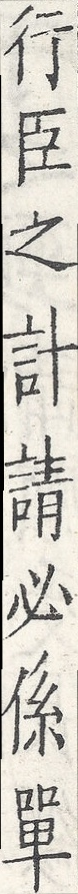行臣之計請必係單
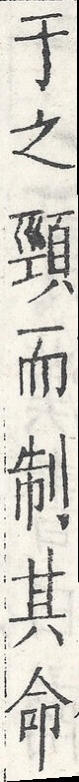于之頸而制其命
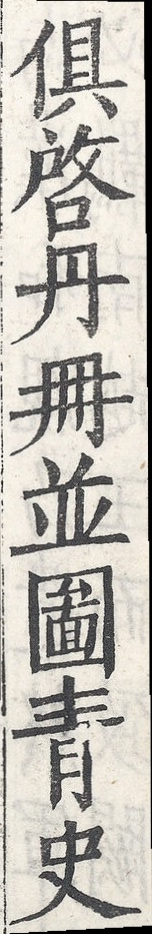俱啟丹冊並圖青史
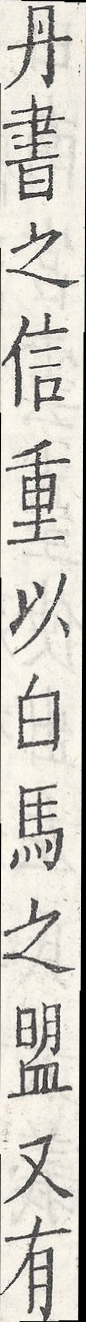丹書之信重以白馬之盟又有
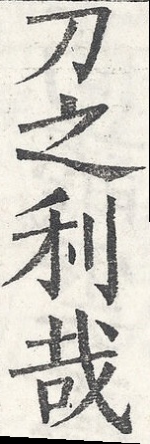刀之利哉
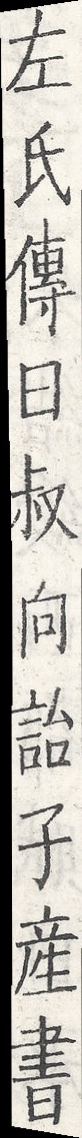左氏傳曰叔向詒子產書
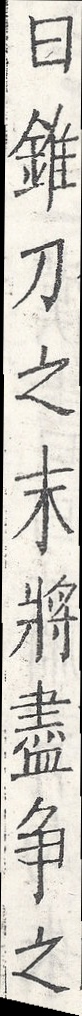曰錐刀之末將盡爭之
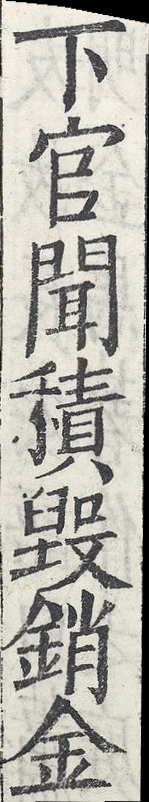下官聞積毀銷金
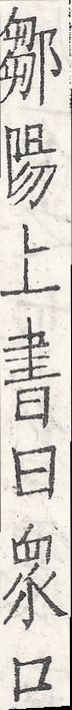鄒陽上書曰衆口
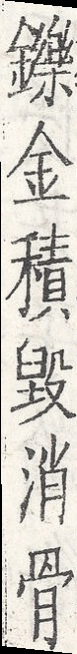鑠金積毀消骨
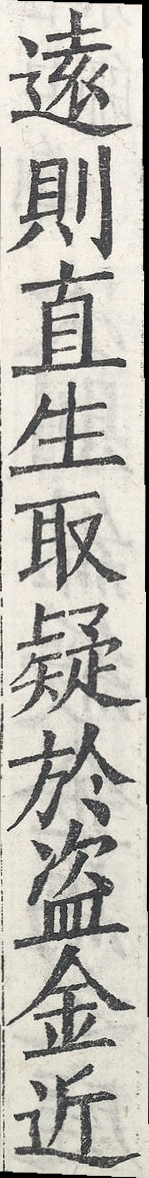遠則直生取疑於盜金近
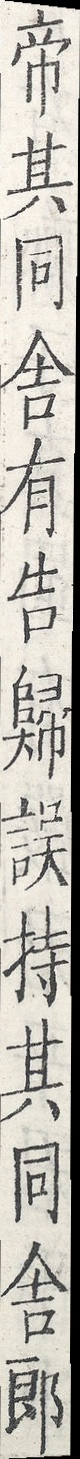帝其同舍有告歸誤持其同舍郎
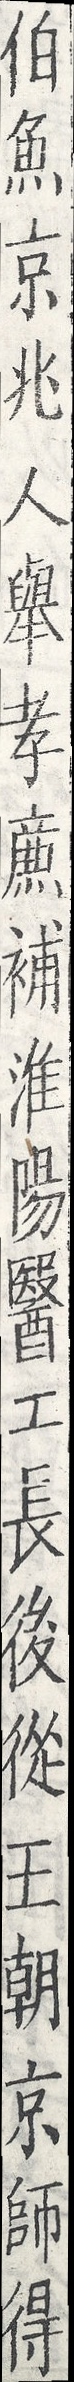伯魚京兆人舉孝廉補淮陽醫工長後從王朝京師得
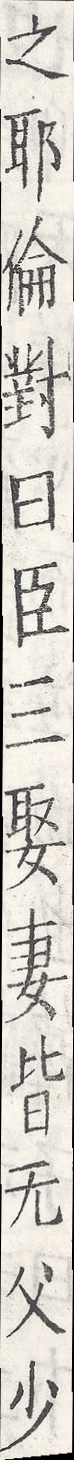之耶倫對曰臣三娶妻皆無父少
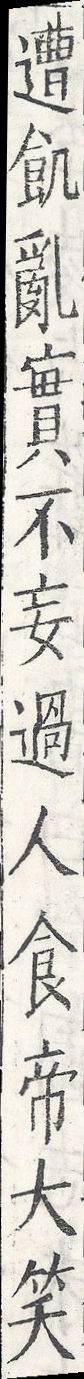遭飢亂實不妄過人食帝大笑
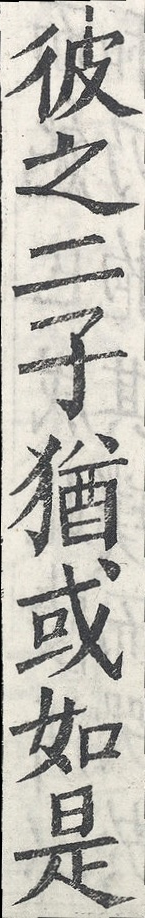彼之二子猶或如是
